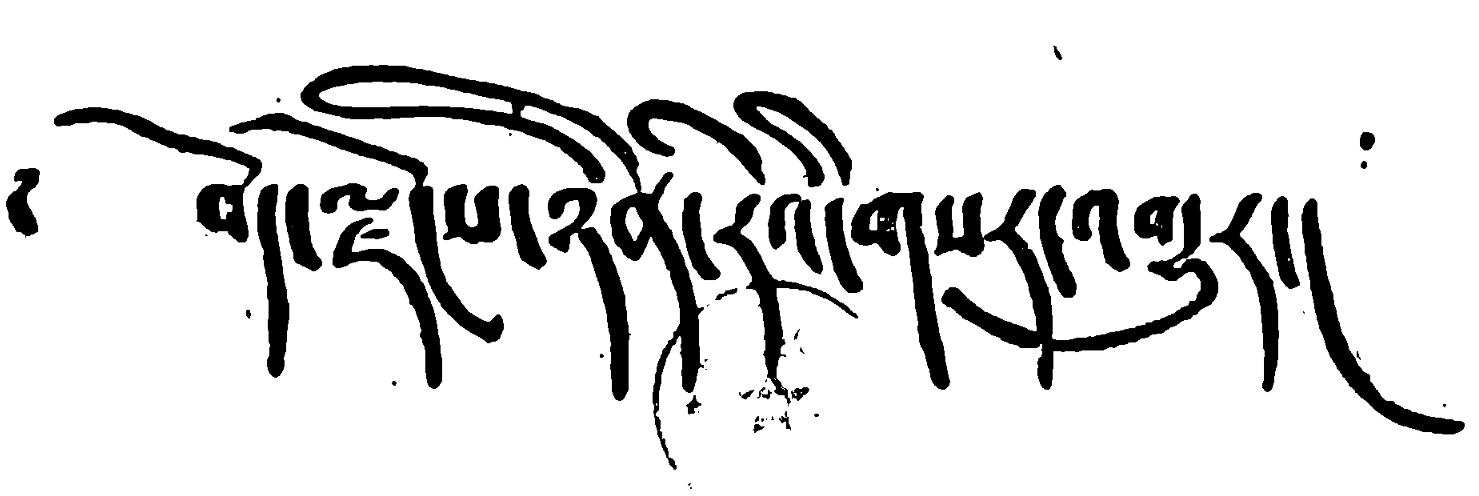༄ བོད་ལྗོངས་ཉིན་རེའི་གསར་འགྱུར།
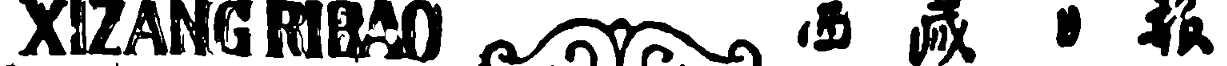XIZANG RIBAO 西 藏 日 報
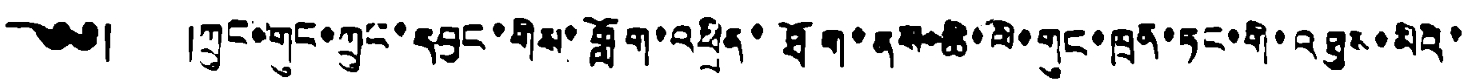༄༅། །ཀྲུང་གུང་ཀྲུང་དབྱང་གིས་གློག་འཕྲིན་ཐོག་ནས་ཆི་ལི་གུང་ཁྲན་ཏང་གི་འཐུས་མིའི་
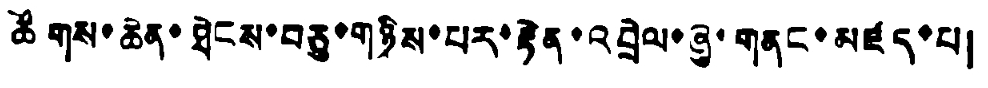ཚོགས་ཆེན་ཐེངས་བཅུ་གཉིས་པར་རྟེན་འབྲེལ་ཞུ་གནང་མཛད་པ།
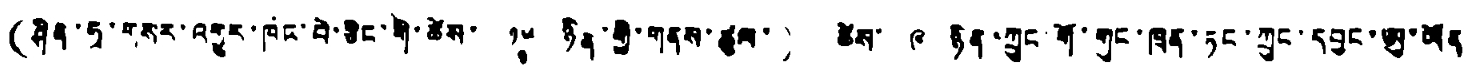(ཤིན་ཧྭ་གསར་འགྱུར་ཁང་པེ་ཅིང་གི་ཚེས་ ༡༥ ཉིན་གྱི་གནས་ཚུལ་) ཚེས་ ༩ ཉིན་ཀྲུང་གོ་གུང་ཁྲན་ཏང་ཀྲུང་དབྱང་ཨུ་ཡོན
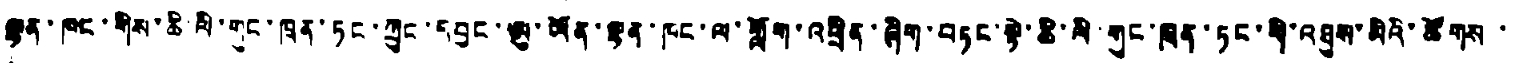ལྷན་ཁང་གིས་ཆི་ལི་གུང་ཁྲན་ཏང་ཀྲུང་དབྱང་ཨུ་ཡོན་ལྷན་ཁང་ལ་གློག་འཕྲིན་ཞིག་བཏང་སྟེ་ཆི་ལི་གུང་ཁྲན་ཏང་གི་འཐུས་མིའི་ཚོགས ་
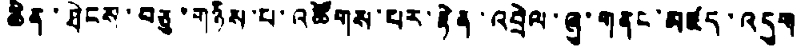ཆེན་ཐེངས་བཅུ་གཉིས་པ་འཚོགས་པར་རྟེན་འབྲེལ་ཞུ་གནང་མཛད་འདུག
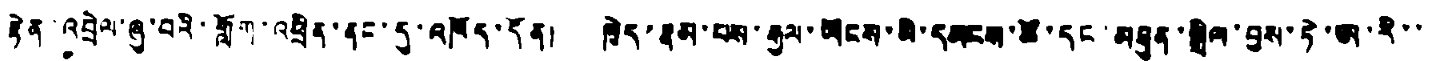རྟེན་འབྲེལ་ཞུ་བའི་གློག་འཕྲིན་ནང་དུ་འཁོད་དོན། ཁྱེད་རྣམ་པས་རྒྱལ་ཡོངས་མི་དམངས་ཚོ་དང་མཐུན་སྒྲིལ་བྱས་ཏེ་ཨ་རི་་
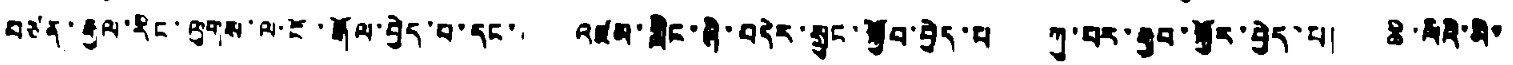བཙན་རྒྱལ་རིང་ལུགས་ལ་ངོ་རྒོལ་བྱེད་པ་དང་། འཛམ་གླིང་ཞི་བདེར་སྲུང་སྐྱོབ་བྱེད་པ ཀུ་པར་རྒྱབ་སྐྱོར་བྱེད་པ། ཆི་ལིའི་མི་
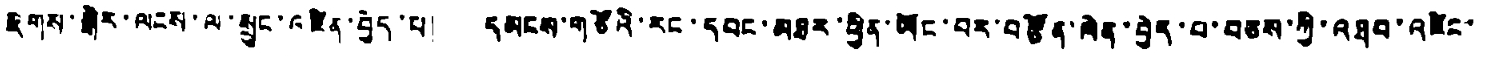རིགས་སྒེར་ལངས་ལ་སྲུང་འཛིན་བྱེད་པ། དམངས་གཙོའི་རང་དབང་མཐར་ཕྱིན་ཡོང་བར་བརྩོན་ལེན་བྱེད་པ་བཅས་ཀྱི་འཐབ་འཛིང་
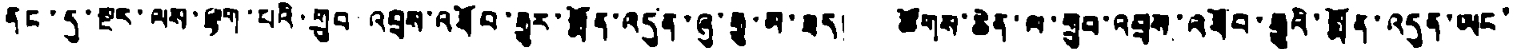ནང་དུ་སྔར་ལས་ལྷག་པའི་གྲུབ་འབྲས་འཐོབ་རྒྱུར་སྨོན་འདུན་ཞུ་རྒྱུ་མ་ཟད། ཚོགས་ཆེན་ལ་གྲུབ་འབྲས་འཐོབ་རྒྱུའི་སྨོན་འདུན་ཡང་
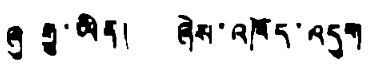ཞུ རྒྱ་ཡིན། ཞེས་འཁོད་འདུག
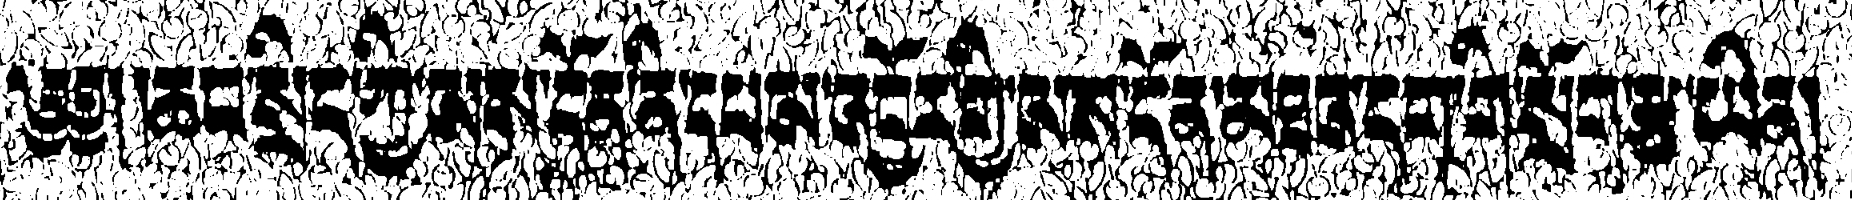༄༅༎ཆབ་སྲིད་ཀྱི་ལས་དོན་ནི་དཔལ་འབྱོར་གྱི་ལས་དོན་མཐའ་དག་གི་སྲོག་རྩ་ཡིན།
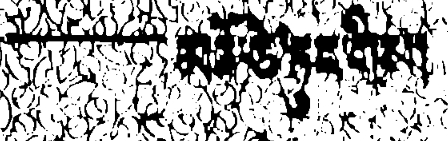——མའོ་ཙེ་ཏུང་གིས།
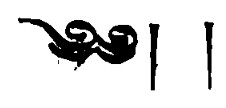༄༅། །
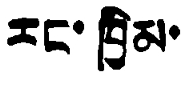རང་ཁྱིམ་
